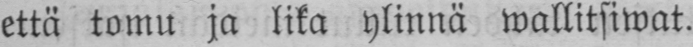että tomu ja lika ylinnä wallitsiwat.
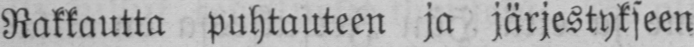Rakkautta puhtauteen ja järjestykseen
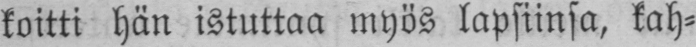koitti hän istuttaa myös lapsiinsa, kah-
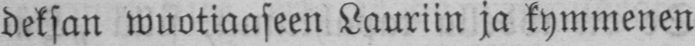deksan wuotiaaseen Lauriin ja kymmenen
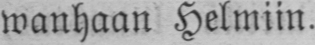wanhaan Helmiin.
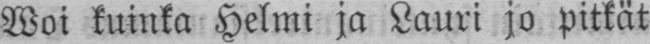Woi kuinka Helmi ja Lauri jo pitkät
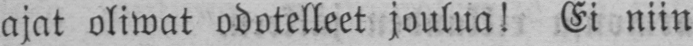ajat oliwat odotelleet joulua! Ei niin
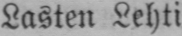Lasten Lehti.
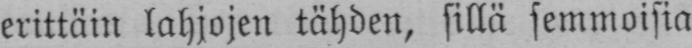erittäin lahjojen tähden, sillä semmoisia
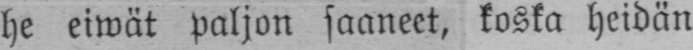he eiwät Paljon saaneet, koska heidän
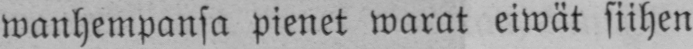wanhempansa pienet warat eiwät siihen
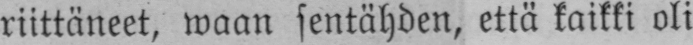riittäneet, waan sentähden, että kaikki oli
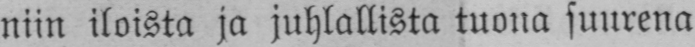niin iloista ja juhlallista tuona suurena
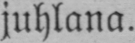juhlana.
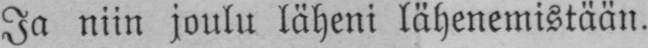Ja niin joulu läheni lähenemistään.
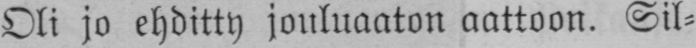Oli jo ehditty jouluaaton aattoon. Sil-
